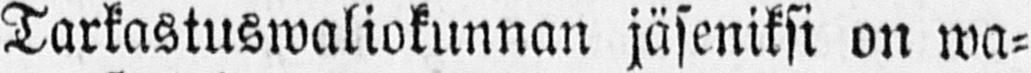Tarkastuswaliokunnan jäseniksi on wa-
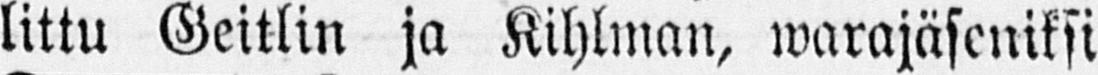littu Geitlin ja Kihlman, warajäseniksi
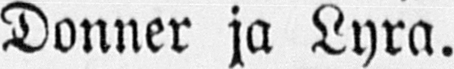Donner ja Lyra.
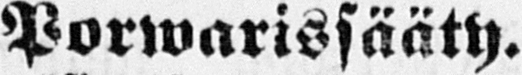Porwarissääty.
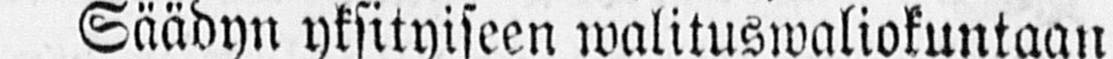Säädyn yksityiseen walituswaliokuntaan
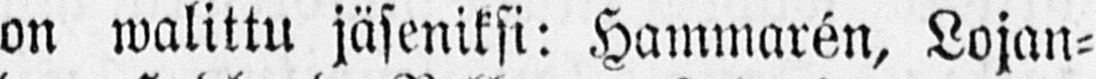on walittu jäseniksi: Hammarén, Lojan-
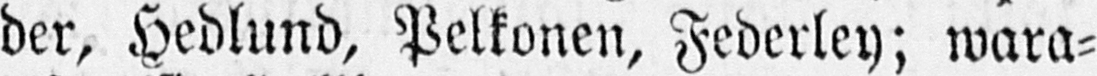der, Hedlund, Pelkonen, Federley; wara-
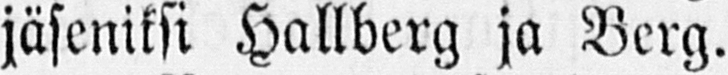jäseniksi Hallberg ja Berg.
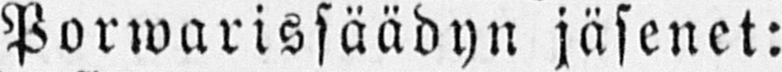Porwarissäädyn jäsenet:
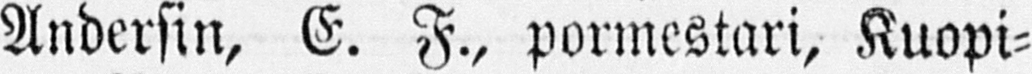Andersin, E. F., pormestari, Kuopi-
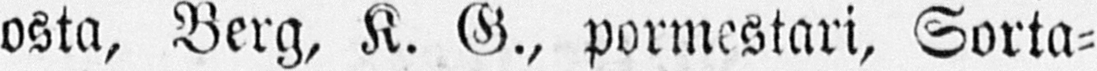osta, Berg, K. G., pormestari, Sorta-
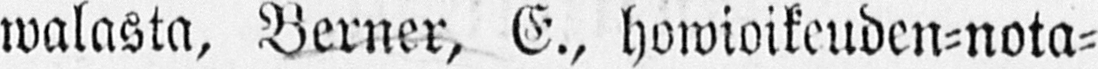walasta, Berner, E., howioikeuden-nota-
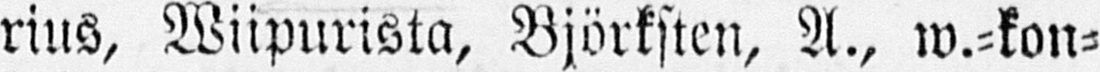rius, Wiipurista, Björksten, A., w.-kon-
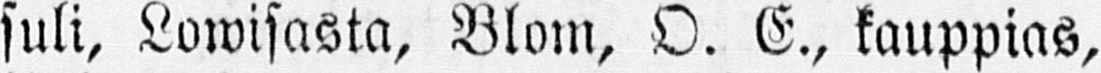suli, Lowisasta, Blom, O. E., kauppias,
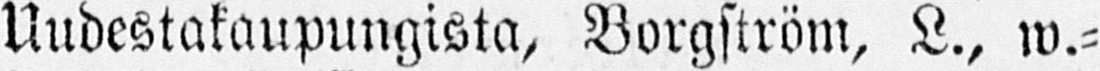Uudestakaupungista, Borgström, L., w.-
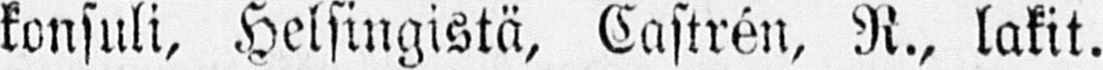konsuli, Helsingistä, Castrén, R., lakit,
